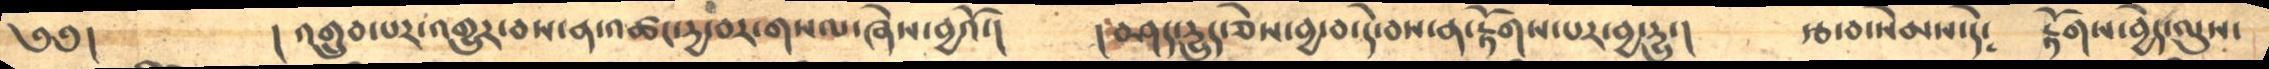༄༅།    །འགྲུབ་པར་འགྱུར་བས་ན་འཚང་དྱ་བར་གསལ་ཞེས་བྱའོ་།  །བཤད་དྱུད་ཅེས་བྱ་བ་དེ་བས་ན་རྟོགས་པར་བྱ་དྱུ་།  རྩ་བ་སེམས་དེ༴  རྟོགས་བྱེད་ལུས་
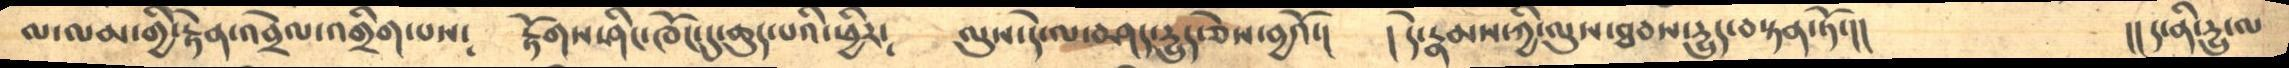ལ་ལམ་གྱི་རྟེན་འབྲེལ་འགྲིག་པས༴  རྟོགས་ཤིང་ཁོང་དུ་ཆུད་པའི་ཕྱིར༴  ལུས་དེ་ལ་བཤད་དྱུད་ཅེས་བྱའོ་།  །དེ་རྣམས་ཀྱི་ལུས་ཐབས་དྱུད་བསྟན་ཏོ་།།        །།ད་ནི་དྱུ་ལ
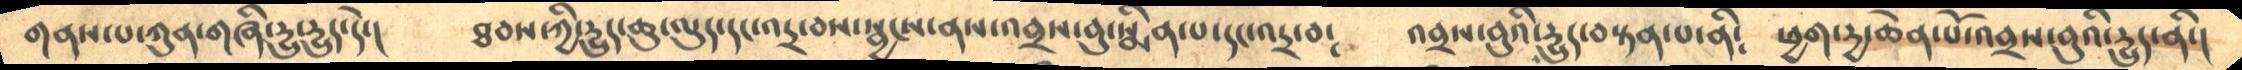གནས་པ་ཀུན་གཞི་དྱུ་དྱུད་དེ་།   ཐབས་ཀྱི་དྱུད་ཆུ་ལུད་དང་འདྲ་བས་སྦྱངས་ནས་འབྲས་བུ་སྨིན་པ་དང་འདྲ་བ༴   འབྲས་བུའི་དྱུད་བསྟན་པ་ནི༴  ཕྱག་དྱ་ཆེན་པོ་འབྲས་བུའི་དྱུད་ནི་།
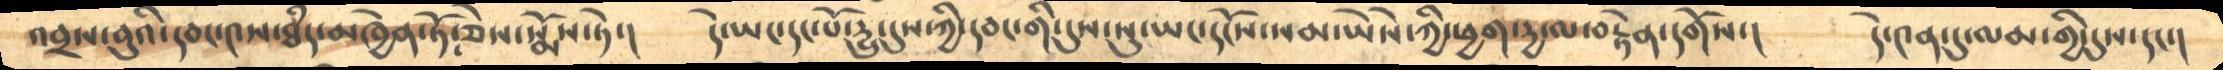འབྲས་བུའི་དབང་༤ས་ཐྃད་མཁྱེན་ཏོ་ཅེས་སྨོས་ཏེ་།   དེ་ཡང་དང་པོ་དྱུ་དུས་ཀྱི་དབང་གི་དུས་སུ་ཡང་དངོས་སམ་ཡེསེ་ཀྱི་ཕྱག་དྱ་ལ་བརྟེན་དགོས་།   དེ་༤ན་དུ་ལམ་གྱི་དུས་དང་།
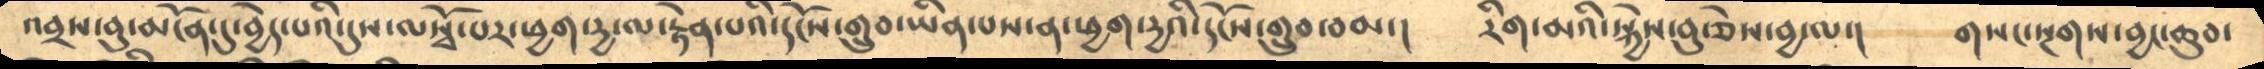འབྲས་བུ་མངོན་དུ་བྱེད་པའི་དུས་ལསྭོ་པར་ཕྱག་དྱ་ལ་རྟེན་པའི་དངོས་གྲུབ་ཡིན་པས་ན་ཕྱག་དྱུའི་དངོས་གྲུབ་བམ་།   རིག་མའི་སྐྱེས་བུ་ཅེས་བྱ་ལ་།  གསང་སྔགས་བྱང་ཆུབ་
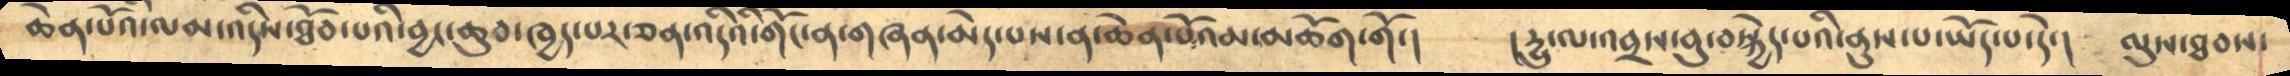ཆེན་པོའི་ལམ་འདིས་ཐོབ་པའི་བྱང་ཆུབ་ཁྱད་པར་ཅན་འདིའི་གོང་ན་གཞན་མེད་པས་ན་ཆེན་པོའམ་མཆོག་གོ་།  །དྱུ་ལ་འབྲས་བུ་བསྐྱེད་པའི་ནུས་པ་ཡོད་པ་དེ་། ལུས་ཐབས་
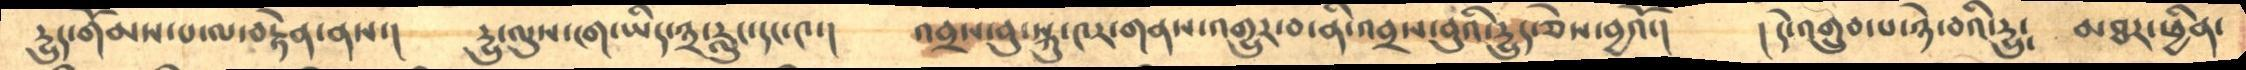དྱུད་གོམས་པ་ལ་བརྟེན་ནས་།   དྱུ་ལུས་ངག་ཡིད་༣་རླུང་དང་༤་།   འབྲས་བུ་སྐུ་༤ར་གནས་འགྱུར་བ་ནི་འབྲས་བུའི་དྱུད་ཅེས་བྱའོ་།   །དེ་འགྲུབ་པ་ཉེ་བའི་དྱུ༴   མཐར་ཕྱིན་
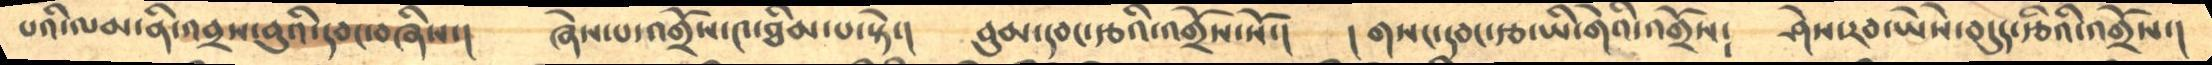པའི་ལམ་ནི་འབྲས་བུའི་དབང་བཞིས་།   ཞེས་པ་འགྲོས་༤་ཐིམ་པ་སྟེ་།   བུམ་དབང་རྩའི་འགྲོས་སོ་།   །གསང་དབང་རྩ་ཡི་གེའི་འགྲོས༴   ཤེས་རབ་ཡེསེ་བདུད་རྩིའི་འགྲོས་།
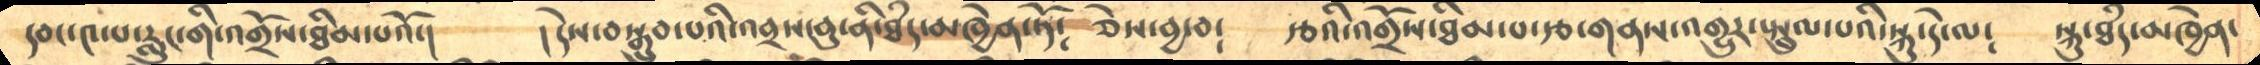དབང་༤་པ་རླུང་གི་འགྲོས་ཐིམ་པའོ་།  །དེས་བསྒྲུབ་པའི་འབྲས་བུ་ནི་ཐྃད་མཁྱེན་ཏོ༴  ཅེས་བྱ་བ༴ རྩའི་འགྲོས་ཐིམ་པ་རྩ་གནས་འགྱུར་སྤྲུལ་པའི་སྐུ་དེ་ལ༴   སྐུ་ཐྃད་མཁྱེན་
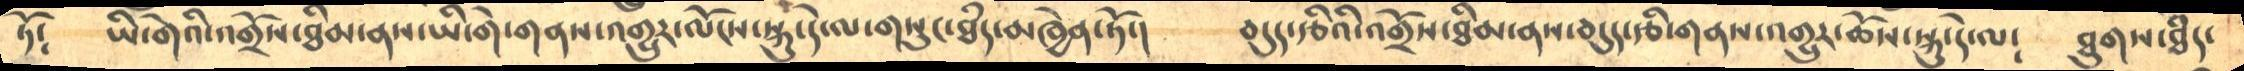ཏོ༴   ཡི་གེའི་འགྲོས་ཐིམ་ནས་ཡི་གེ་གནས་འགྱུར་ལོངས་སྐུ་དེ་ལ་གསུང་ཐྃད་མཁྱེན་ཏོ་།   བདུད་རྩིའི་འགྲོས་ཐིམ་ནས་བདུད་རྩི་གནས་འགྱུར་ཆོས་སྐུ་དེ་ལ༴   ཐུགས་ཐྃད་
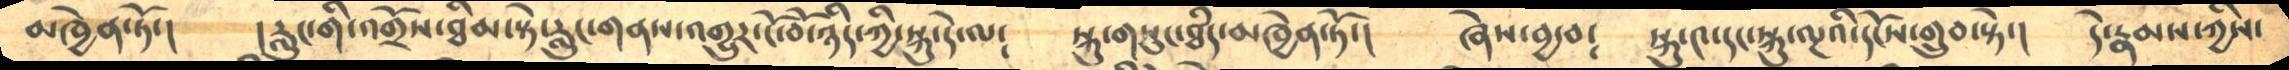མཁྱེན་ཏོ་།   །རླུང་གི་འགྲོས་ཐིམ་སྟེ་རླུང་གནས་འགྱུར་ངོ་བོ་ཉིད་ཀྱི་སྐུ་དེ་ལ༴   སྐུ་གསུང་ཐྃད་མཁྱེན་ཏོ་།   ཞེས་བྱ་བ༴   སྐུ་༤་དང་སྐུ་ལྔའི་དངོས་གྲུབ་སྟེ་།   དེ་རྣམས་ཀྱིས་
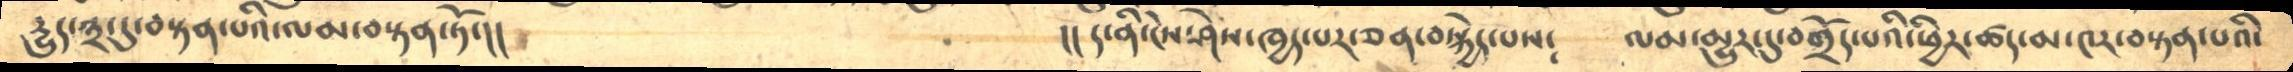དྱུད་༣་དུ་བསྟན་པའི་ལམ་བསྟན་ཏོ་།།            །།ད་ནི་ངེས་ཤེས་ཁྱད་པར་ཅན་བསྐྱེད་པས༴   ལམ་མྱུར་དུ་བགྲོད་པའི་ཕྱིར་ཚད་མ་༤ར་བསྟན་པའི་
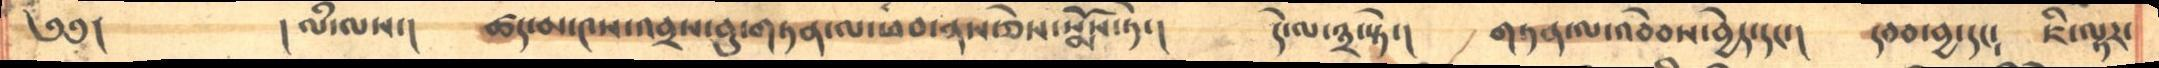༄༅།      །ལྃ་ལས་།   ཚད་མ་༤ས་འབྲས་བུ་གཏན་ལ་ཕབ་ནས་ཅེས་སྨོས་ཏེ་།    དེ་ལ་༣་སྟེ་།   གཏན་ལ་འབེབས་བྱེད་དང་།   དབབ་བྱ་དང༴  ཇི་ལྟར་
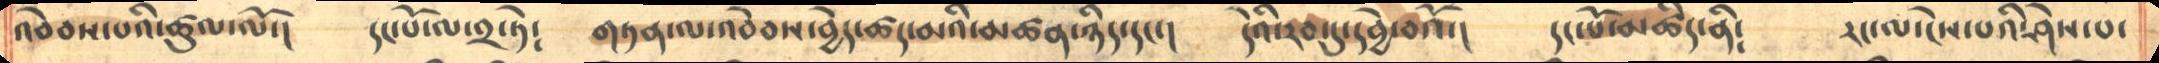འབེབས་པའི་ཚུལ་ལོ་།   དང་པོ་ལ་༢་ཏེ༴   གཏན་ལ་འབེབས་བྱེད་ཚད་མའི་མཚན་ཉིད་དང་།   དེའི་རབ་དུ་དབྱེ་བའོ་།  དང་པོ་མཚིད་ནི༴   རང་ལ་ངེས་པའི་ཤེས་པ་
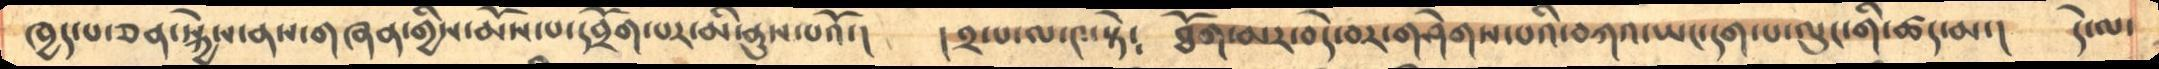ཁྱད་པ་ཅན་སྐྱེས་ནས་གཞན་གྱིས་མོས་པ་དབྲོག་པར་མི་ནུས་པའོ་།    །༢་པ་ལ་༤་སྟེ༴ ཐོག་མར་བདེ་བར་གཤེགས་པའི་བཀའ་ཡང་དག་པ་ལུང་གི་ཚད་མ་།   དེ་ལ་
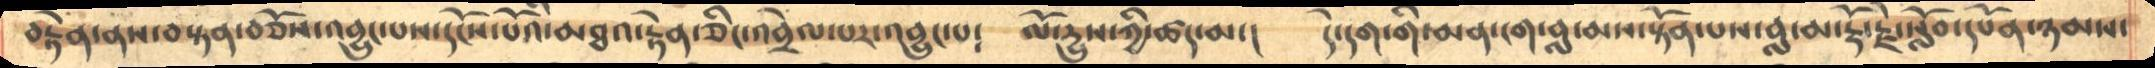བརྟེན་ནས་བསྟན་བཅོས་འབྱུང་པས་དངོས་པོའི་མཐའ་རྟེན་ཅིང་འབྲེལ་པར་འབྱུང་པ༴   ལོ་དྱུས་ཀྱི་ཚད་མ་།   དེ་དག་གི་མན་ངག་བླ་མས་སྟོན་པས་བླ་མ་རྡོ་རྗེ་སློབ་དཔོན་ཉམས་
